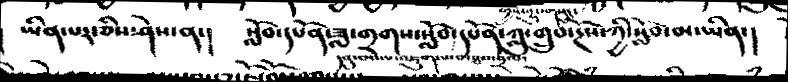ཡིན་པར་ཅིས་ཤེས་ན་།   སློབ་དཔོན་ཟླ་གྲགས་སློབ་དཔོན་ཀླུ་གྲུབ་རྔོས་ཀྱི་སློབ་མ་ཡིན་།
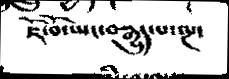ཇོ་བོ་ཡང་བསྒྱུད་པ་ལྔ་
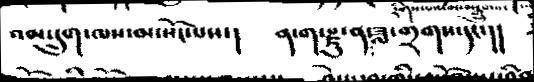འམ་དྲུག་ལས་མ་སོང་པས་།   ན་ག་རྫུ་ན་ཟླ་གྲགས་དང་།།
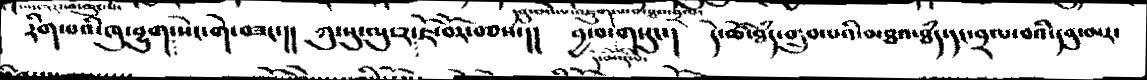རིག་པའི་ཁུ་བྱུག་སེང་གེ་བཟང་།།  ཀུ་སུ་ལུ་ར་ཇོ་བོར་བཅས་།།   བྱ་བ་གསུང་།  དེ་ཚེ་ཐཾད་གྲུབ་པའི་མཐའ་ཐཾད་དང་བྲལ་བའི་དབུ་མར་
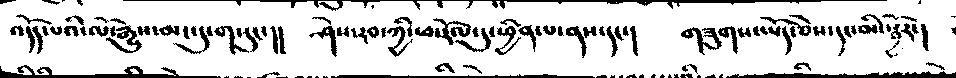འདོད་པའི་ལོ་རྒྱུས་མང་དུ་གསུང་།།  ཤེས་རབ་ཀྱི་ཕ་རོལ་དུ་ཕྱིན་པ་ནས་དང་།  གཟུགས་ཡོད་ཅེས་དང་མི་སྦྱོར་།
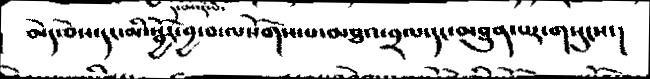མེད་ཅེས་དང་མི་སྦྱོར་བྱ་བ་ལསོགས་པ་མཐའ་བྲལ་དང་མཐུན་པར་གསུངས་།
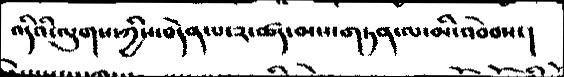འདིའི་ལུགས་ཀྱིས་བདེན་པ་༢་ཚད་མས་གཏན་ལ་མི་འབེབས་།
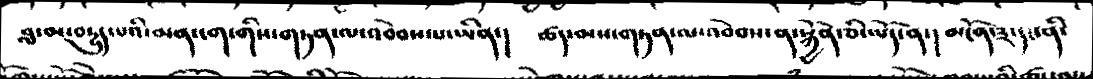བླ་མ་བདྱུད་པའི་མན་ངག་གིས་གཏན་ལ་འབེབས་པ་ཡིན་།   ཚད་མས་གཏན་ལ་འབེབས་ན་སྐྱོན་ཅི་ཡོད་ན་།   མངོན་༣་དང་ནི་
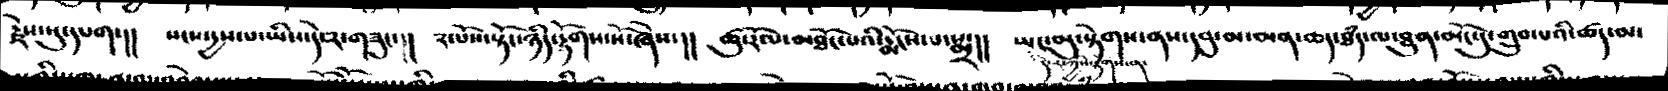རྗེས་སུ་དཔག་།།  སངས་དྱས་པ་ཡིས་དེ་༢་གཟུང་།།   ༢་པོས་སྟོང་ཉིད་རྟོགས་སོ་ཞེས་།།  ཚུ་རོལ་མཐོང་པའི་རྨོངས་པ་སྨྲ་།།  ཡང་མུ་སྟེགས་ནས་དབུ་མ་མན་ཆད་ཐཾད་ལ་ཐུན་མོང་དུ་གྲུབ་པའི་ཚད་མ་
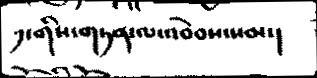༡་གིས་གཏན་ལ་འབེབས་སམ་།
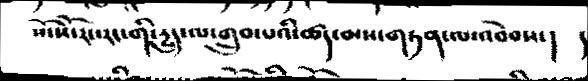སོ་སོ་རང་རང་གི་དྱུད་ལ་གྲུབ་པའི་ཚད་མས་གཏན་ལ་འབེབས་།    །
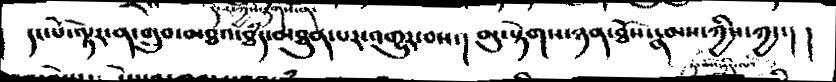དང་པོ་ལྟར་ན་གྲུབ་མཐའ་ཐཾད་མཐུན་པར་འགྱུར་བས་།    མུ་སྟེགས་ཉན་ཐོས་རྣམས་ཀྱིས་ཀྱང་།   །
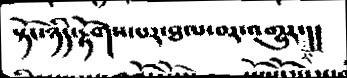སྟོང་ཉིད་རྟོགས་པར་ཐལ་བར་འགྱུར་།།
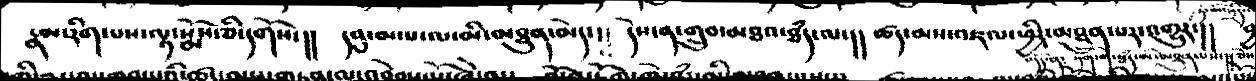རྣམ་རིག་པས་ལྟ་སྨོས་ཅི་དགོས་།།   དབུ་མ་པ་ལ་མི་མཐུན་མེད་།༴   དེས་ན་གྲུབ་མཐའ་ཐཾད་ལ་།།  ཚད་མས་འཇལ་ཕྱིར་མཐུན་པར་འགྱུར་།།
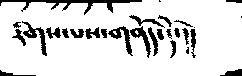རིགས་པས་གནོད་དོ་།།
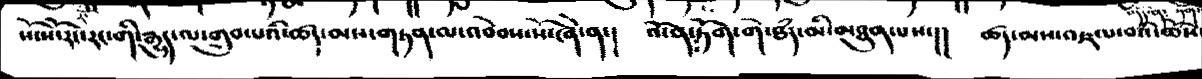སོ་སོ་རང་རང་གི་རྒྱུད་ལ་གྲུབ་པའི་ཚད་མས་གཏན་ལ་འབེབས་སོ་ཞེ་ན་།   འོ་ན་ཏོག་གེ་ཐཾད་མི་མཐུན་པས་།།  ཚད་མས་འཇལ་བའི་ཆོས་
